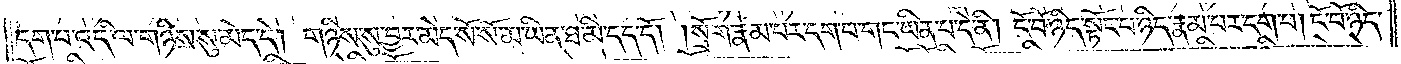དག་པ་འདི་ལ་གཉིས་སུ་མེད་དེ། གཉིས་སུ་བྱར་མེད་སོ་སོ་མ་ཡིན་ཐ་མི་དད་དོ། །སྲོག་རྣམ་པར་དག་པ་གང་ཡིན་པ་དེ་ནི། ངོ་བོ་ཉིད་སྟོང་པ་ཉིད་རྣམ་པར་དག་པ། ངོ་བོ་ཉིད་
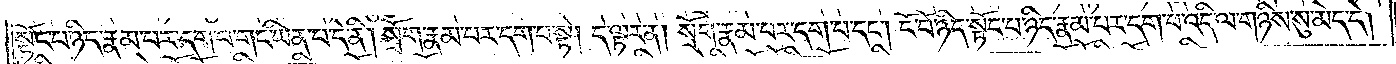སྟོང་པ་ཉིད་རྣམ་པར་དག་པ་གང་ཡིན་པ་དེ་ནི། སྲོག་རྣམ་པར་དག་པ་སྟེ། དེ་ལྟར་ན། སྲོག་རྣམ་པར་དག་པ་དང༌། ངོ་བོ་ཉིད་སྟོང་པ་ཉིད་རྣམ་པར་དག་པ་འདི་ལ་གཉིས་སུ་མེད་དེ།
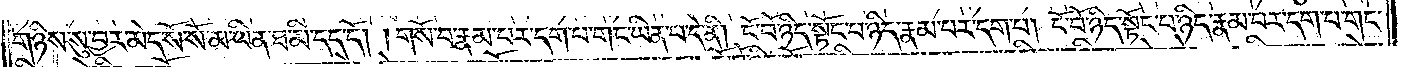གཉིས་སུ་བྱར་མེད་སོ་སོ་མ་ཡིན་ཐ་མི་དད་དོ། །གསོ་བ་རྣམ་པར་དག་པ་གང་ཡིན་པ་དེ་ནི། ངོ་བོ་ཉིད་སྟོང་པ་ཉིད་རྣམ་པར་དག་པ། ངོ་བོ་ཉིད་སྟོང་པ་ཉིད་རྣམ་པར་དག་པ་གང་
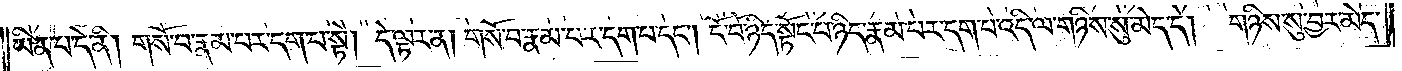ཡིན་པ་དེ་ནི། གསོ་བ་རྣམ་པར་དག་པ་སྟེ། དེ་ལྟར་ན། གསོ་བ་རྣམ་པར་དག་པ་དང༌། ངོ་བོ་ཉིད་སྟོང་པ་ཉིད་རྣམ་པར་དག་པ་འདི་ལ་གཉིས་སུ་མེད་དེ། གཉིས་སུ་བྱར་མེད་
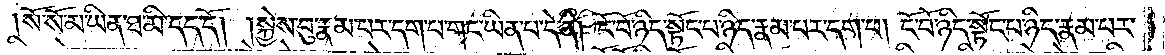སོ་སོ་མ་ཡིན་ཐ་མི་དད་དོ། །སྐྱེས་བུ་རྣམ་པར་དག་པ་གང་ཡིན་པ་དེ་ནི། ངོ་བོ་ཉིད་སྟོང་པ་ཉིད་རྣམ་པར་དག་པ། ངོ་བོ་ཉིད་སྟོང་པ་ཉིད་རྣམ་པར་
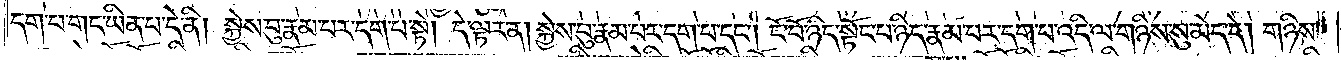དག་པ་གང་ཡིན་པ་དེ་ནི། སྐྱེས་བུ་རྣམ་པར་དག་པ་སྟེ། དེ་ལྟར་ན། སྐྱེས་བུ་རྣམ་པར་དག་པ་དང༌། ངོ་བོ་ཉིད་སྟོང་པ་ཉིད་རྣམ་པར་དག་པ་འདི་ལ་གཉིས་སུ་མེད་དེ། གཉིས་
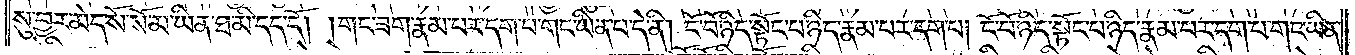སུ་བྱར་མེད་སོ་སོ་མ་ཡིན་ཐ་མི་དད་དོ། །གང་ཟག་རྣམ་པར་དག་པ་གང་ཡིན་པ་དེ་ནི། ངོ་བོ་ཉིད་སྟོང་པ་ཉིད་རྣམ་པར་དག་པ། ངོ་བོ་ཉིད་སྟོང་པ་ཉིད་རྣམ་པར་དག་པ་གང་ཡིན་
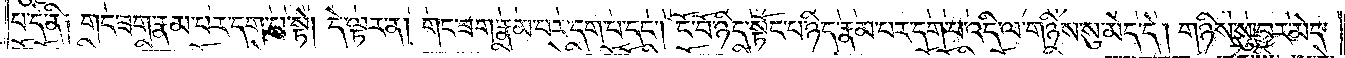པ་དེ་ནི། གང་ཟག་རྣམ་པར་དག་པ་སྟེ། དེ་ལྟར་ན། གང་ཟག་རྣམ་པར་དག་པ་དང༌། ངོ་བོ་ཉིད་སྟོང་པ་ཉིད་རྣམ་པར་དག་པ་འདི་ལ་གཉིས་སུ་མེད་དེ། གཉིས་སུ་བྱར་མེད་
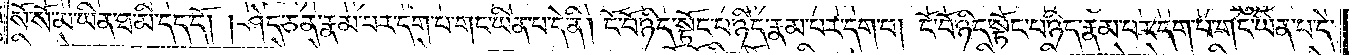སོ་སོ་མ་ཡིན་ཐ་མི་དད་དོ། །ཤེད་ཅན་རྣམ་པར་དག་པ་གང་ཡིན་པ་དེ་ནི། ངོ་བོ་ཉིད་སྟོང་པ་ཉིད་རྣམ་པར་དག་པ། ངོ་བོ་ཉིད་སྟོང་པ་ཉིད་རྣམ་པར་དག་པ་གང་ཡིན་པ་དེ་
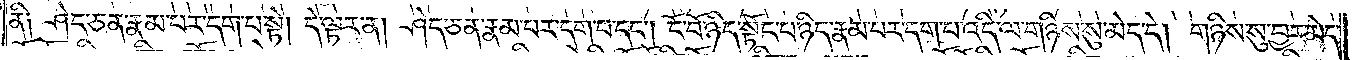ནི། ཤེད་ཅན་རྣམ་པར་དག་པ་སྟེ། དེ་ལྟར་ན། ཤེད་ཅན་རྣམ་པར་དག་པ་དང༌། ངོ་བོ་ཉིད་སྟོང་པ་ཉིད་རྣམ་པར་དག་པ་འདི་ལ་གཉིས་སུ་མེད་དེ། གཉིས་སུ་བྱར་མེད་
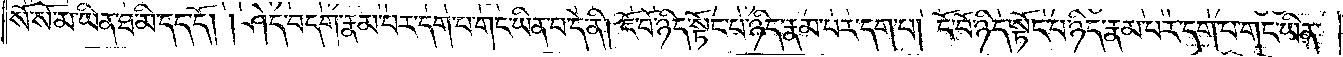སོ་སོ་མ་ཡིན་ཐ་མི་དད་དོ། །ཤེད་བདག་རྣམ་པར་དག་པ་གང་ཡིན་པ་དེ་ནི། ངོ་བོ་ཉིད་སྟོང་པ་ཉིད་རྣམ་པར་དག་པ། ངོ་བོ་ཉིད་སྟོང་པ་ཉིད་རྣམ་པར་དག་པ་གང་ཡིན་
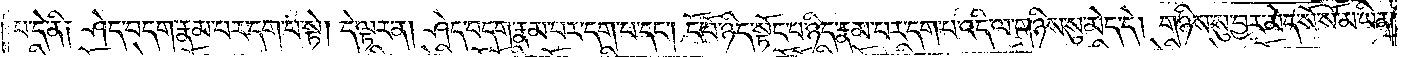པ་དེ་ནི། ཤེད་བདག་རྣམ་པར་དག་པ་སྟེ། དེ་ལྟར་ན། ཤེད་བདག་རྣམ་པར་དག་པ་དང༌། ངོ་བོ་ཉིད་སྟོང་པ་ཉིད་རྣམ་པར་དག་པ་འདི་ལ་གཉིས་སུ་མེད་དེ། གཉིས་སུ་བྱར་མེད་སོ་སོ་མ་ཡིན་
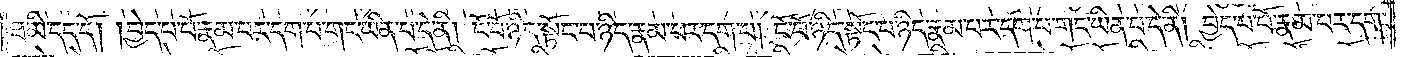ཐ་མི་དད་དོ། །བྱེད་པ་པོ་རྣམ་པར་དག་པ་གང་ཡིན་པ་དེ་ནི། ངོ་བོ་ཉིད་སྟོང་པ་ཉིད་རྣམ་པར་དག་པ། ངོ་བོ་ཉིད་སྟོང་པ་ཉིད་རྣམ་པར་དག་པ་གང་ཡིན་པ་དེ་ནི། བྱེད་པ་པོ་རྣམ་པར་དག་
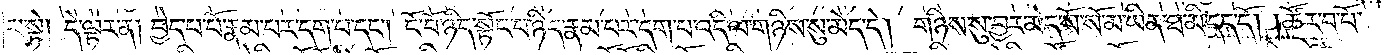པ་སྟེ། དེ་ལྟར་ན། བྱེད་པ་པོ་རྣམ་པར་དག་པ་དང༌། ངོ་བོ་ཉིད་སྟོང་པ་ཉིད་རྣམ་པར་དག་པ་འདི་ལ་གཉིས་སུ་མེད་དེ། གཉིས་སུ་བྱར་མེད་སོ་སོ་མ་ཡིན་ཐ་མི་དད་དོ། །ཚོར་བ་པོ་
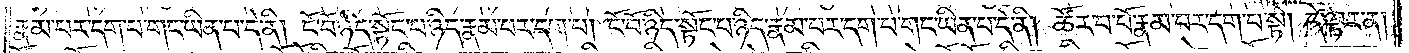རྣམ་པར་དག་པ་གང་ཡིན་པ་དེ་ནི། ངོ་བོ་ཉིད་སྟོང་པ་ཉིད་རྣམ་པར་དག་པ། ངོ་བོ་ཉིད་སྟོང་པ་ཉིད་རྣམ་པར་དག་པ་གང་ཡིན་པ་དེ་ནི། ཚོར་བ་པོ་རྣམ་པར་དག་པ་སྟེ། དེ་ལྟར་ན།
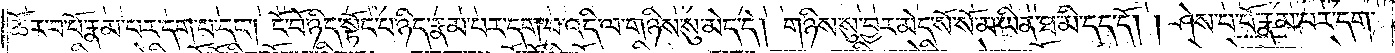ཚོར་བ་པོ་རྣམ་པར་དག་པ་དང༌། ངོ་བོ་ཉིད་སྟོང་པ་ཉིད་རྣམ་པར་དག་པ་འདི་ལ་གཉིས་སུ་མེད་དེ། གཉིས་སུ་བྱར་མེད་སོ་སོ་མ་ཡིན་ཐ་མི་དད་དོ། །ཤེས་པ་པོ་རྣམ་པར་དག་
